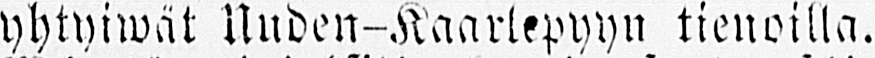yhtyiwät Uuden-Kaarlepyyn tienoilla.
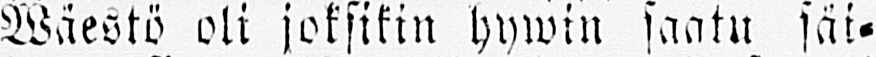Wäestö oli joksikin hywin saatu säi-
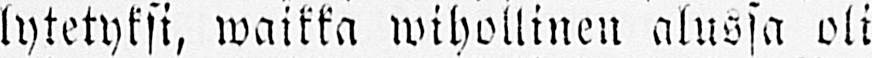lytetyksi, waikka wihollinen alussa oli
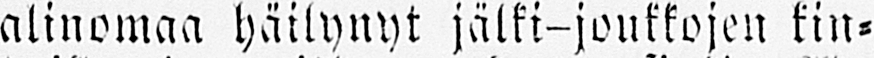alinomaa häilynyt jälki-joukkojen kin-
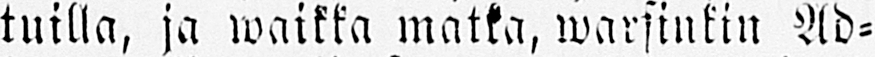tuilla, ja waikka matka, warsinkin Ad-
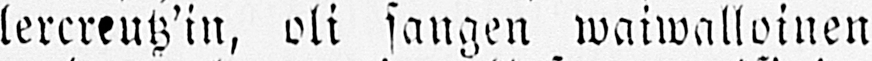lerereutz'in, oli sangen waiwalloinen
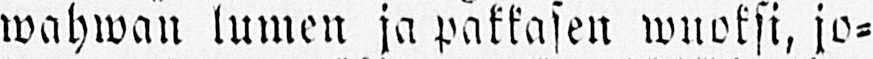wahwan lumen ja pakkasen wuoksi, jo-
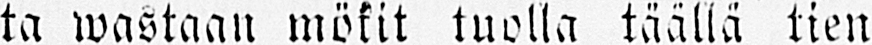ta wastaan mökit tuolla täällä tien
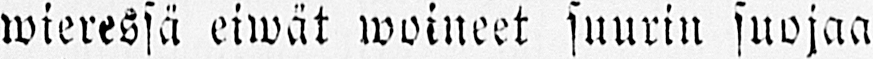wieressä eiwät woineet suurin suojaa
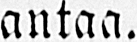antaa.
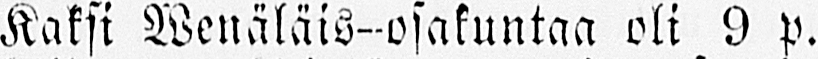Kaksi Wenäläis-osakuntaa oli 9 p.
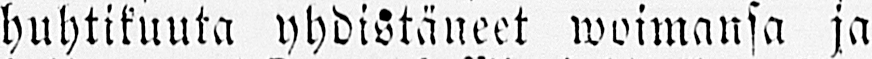huhtikuuta yhdistäneet woimansa ja
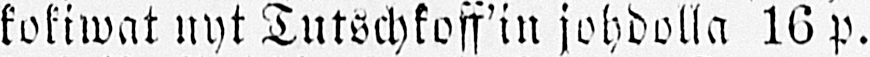kokiwat nyt Tutschkoff'in johdolla 16 p.
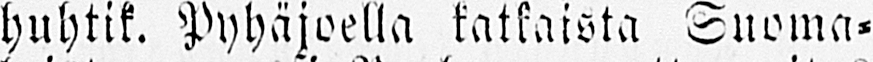huhtik. Pyhäjoella katkaista Suoma-
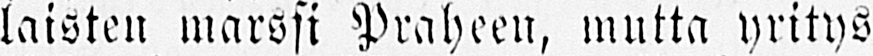laisten marssi Praheen, mutta yritys
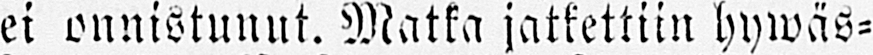ei onnistunut. Matka jatkettiin hywäs-
